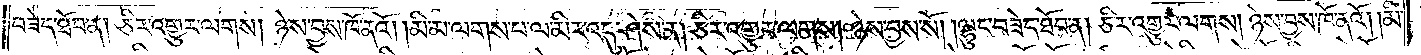བཟེད་ཐོབ་ན། ཅིར་འགྱུར་ལགས། ཉེས་བྱས་ཁོ་ནའོ། །མི་མ་ལགས་པ་ལ་མིར་འདུ་ཤེས་ན། ཅིར་འགྱུར་ལགས། ཉེས་བྱས་སོ། །ལྷུང་བཟེད་ཐོབ་ན། ཅིར་འགྱུར་ལགས། ཉེས་བྱས་ཁོ་ནའོ། །མི་
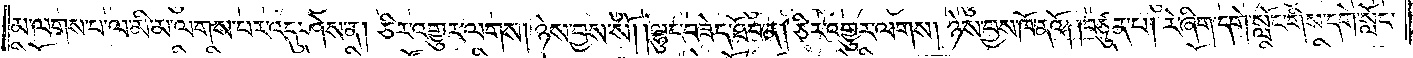མ་ལགས་པ་ལ་མི་མ་ལགས་པར་འདུ་ཤེས་ན། ཅིར་འགྱུར་ལགས། ཉེས་བྱས་སོ། །ལྷུང་བཟེད་ཐོབ་ན། ཅིར་འགྱུར་ལགས། ཉེས་བྱས་ཁོ་ནའོ། །བཙུན་པ། རེ་ཞིག་དགེ་སློང་གིས་དགེ་སློང་
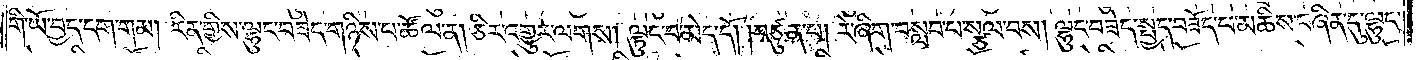གི་ཡོ་བྱད་དག་གམ། རིན་གྱིས་ལྷུང་བཟེད་གཉིས་པ་ཚོལ་ན། ཅིར་འགྱུར་ལགས། ལྟུང་བ་མེད་དོ། །བཙུན་པ། རེ་ཞིག་བསླབ་པ་སྩལ་བས། ལྷུང་བཟེད་སྤྱད་བཟོད་པ་མཆིས་བཞིན་དུ་ལྷུང་
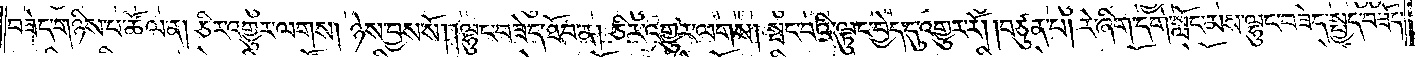བཟེད་གཉིས་པ་ཚོལ་ན། ཅིར་འགྱུར་ལགས། ཉེས་བྱས་སོ། །ལྷུང་བཟེད་ཐོབ་ན། ཅིར་འགྱུར་ལགས། སྤང་བའི་ལྟུང་བྱེད་དུ་འགྱུར་རོ། །བཙུན་པ། རེ་ཞིག་དགེ་སློང་མས་ལྷུང་བཟེད་སྤྱད་བཟོད་
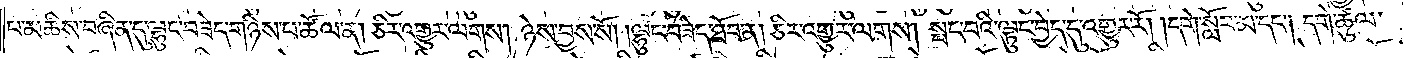པ་མཆིས་བཞིན་དུ་ལྷུང་བཟེད་གཉིས་པ་ཚོལ་ན། ཅིར་འགྱུར་ལགས། ཉེས་བྱས་སོ། །ལྷུང་བཟེད་ཐོབ་ན། ཅིར་འགྱུར་ལགས། སྤང་བའི་ལྟུང་བྱེད་དུ་འགྱུར་རོ། །དགེ་སློང་མ་དང༌། དགེ་ཚུལ་
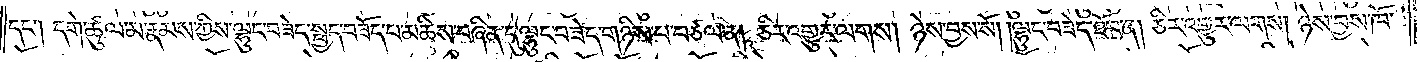དང༌། དགེ་ཚུལ་མ་རྣམས་ཀྱིས་ལྷུང་བཟེད་སྤྱད་བཟོད་པ་མཆིས་བཞིན་དུ་ལྷུང་བཟེད་གཉིས་པ་བཙལ་ན། ཅིར་འགྱུར་ལགས། ཉེས་བྱས་སོ། །ལྷུང་བཟེད་ཐོབ་ན། ཅིར་འགྱུར་ལགས། ཉེས་བྱས་ཁོ་
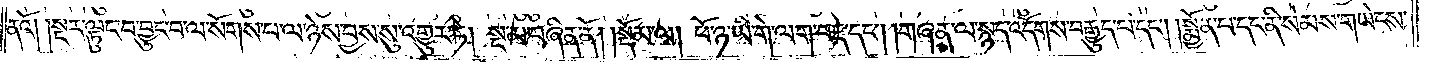ནའོ། །སྔར་ལྟུང་བ་བྱུང་བ་ལ་སོགས་པ་ལ་ཉེས་བྱས་སུ་འགྱུར་ཏེ། སྔ་མ་བཞིན་ནོ།    །སྡོམ་ལ། ཕོ་ཉ་ཡི་གེ་ལག་བརྡ་དང༌། །གཞན་ལ་སྙད་འདོགས་བརྒྱུད་པ་དང༌། སྨྱོན་པ་དང་ནི་སེམས་གཡེངས་
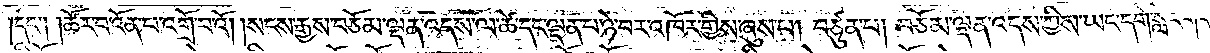།དང༌། །ཚོར་བ་འོན་པ་འགྲོ་བ་འོ། །སངས་རྒྱས་བཅོམ་ལྡན་འདས་ལ་ཚེ་དང་ལྡན་པ་ཉེ་བར་འཁོར་གྱིས་ཞུས་པ། བཙུན་པ། བཅོམ་ལྡན་འདས་ཀྱིས་ཡང་དགེ་སློང་གང་
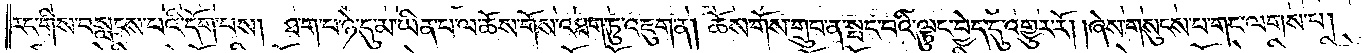རང་གིས་བསླངས་པའི་དོག་པས། ཐ་ག་པ་ཉེ་དུ་མ་ཡིན་པ་ལ་ཆོས་གོས་འཐག་ཏུ་འཇུག་ན། ཆོས་གོས་གྲུབ་ན་སྤང་བའི་ལྟུང་བྱེད་དུ་འགྱུར་རོ། །ཞེས་གསུངས་པ་གང་ལགས་པ།
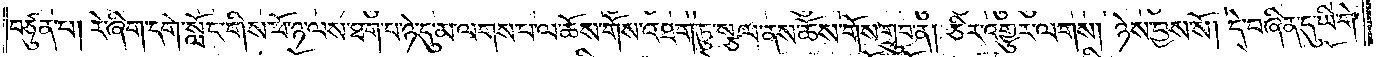བཙུན་པ། རེ་ཞིག་དགེ་སློང་གིས་ཕོ་ཉ་ལས་ཐ་ག་པ་ཉེ་དུ་མ་ལགས་པ་ལ་ཆོས་གོས་འཐག་ཏུ་སྩལ་ནས་ཆོས་གོས་གྲུབ་ན། ཅིར་འགྱུར་ལགས། ཉེས་བྱས་སོ། །དེ་བཞིན་དུ་ཡི་གེ་
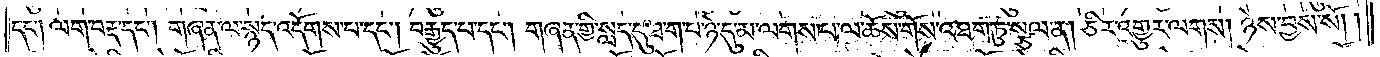དང༌། ལག་བརྡ་དང༌། གཞན་ལ་སྙད་འདོགས་པ་དང༌། བརྒྱུད་པ་དང༌། གཞན་གྱི་སླད་དུ་ཐ་ག་པ་ཉེ་དུ་མ་ལགས་པ་ལ་ཆོས་གོས་འཐག་ཏུ་སྩལ་ན། ཅིར་འགྱུར་ལགས། ཉེས་བྱས་སོ། །
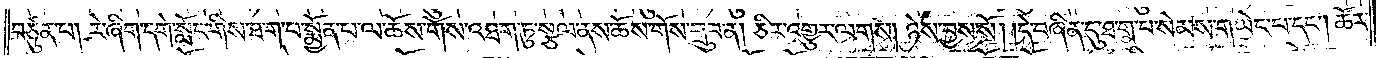བཙུན་པ། རེ་ཞིག་དགེ་སློང་གིས་ཐ་ག་པ་སྨྱོན་པ་ལ་ཆོས་གོས་འཐག་ཏུ་སྩལ་ནས་ཆོས་གོས་གྲུབ་ན། ཅིར་འགྱུར་ལགས། ཉེས་བྱས་སོ། །དེ་བཞིན་དུ་ཐ་ག་པ་སེམས་གཡེང་པ་དང༌། ཚོར་
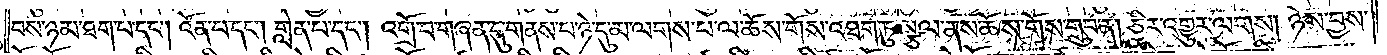བས་ཉམ་ཐག་པ་དང༌། འོན་པ་དང༌། གླེན་པ་དང༌། འགྲོ་བ་གཞན་དུ་གནས་པ་ཉེ་དུ་མ་ལགས་པ་ལ་ཆོས་གོས་འཐག་ཏུ་སྩལ་ནས་ཆོས་གོས་གྲུབ་ན། ཅིར་འགྱུར་ལགས། ཉེས་བྱས་
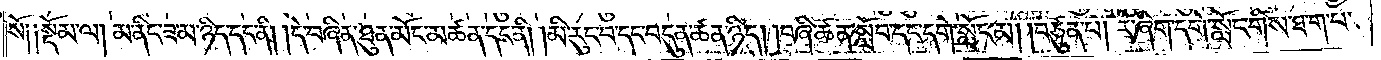སོ༑    ༑སྡོམ་ལ། མ་ནིང་ཟ་མ་ཉིད་དང་ནི། །དེ་བཞིན་ཐུན་མོང་མཚན་དང་ནི། །མི་རུང་བ་དང་བདུན་ཚན་ཉིད། །བཞི་ཚན་སློབ་དང་དགེ་སློང་མ། །བཙུན་པ། རེ་ཞིག་དགེ་སློང་གིས་ཐ་ག་པ་
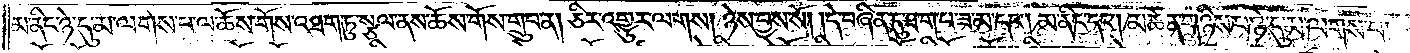མ་ནིང་ཉེ་དུ་མ་ལགས་པ་ལ་ཆོས་གོས་འཐག་ཏུ་སྩལ་ནས་ཆོས་གོས་གྲུབ་ན། ཅིར་འགྱུར་ལགས། ཉེས་བྱས་སོ། །དེ་བཞིན་དུ་ཐ་ག་པ་ཟ་མ་དང༌། མ་ནིང་དང༌། མཚན་གཉིས་པ་ཉེ་དུ་མ་ལགས་པ་
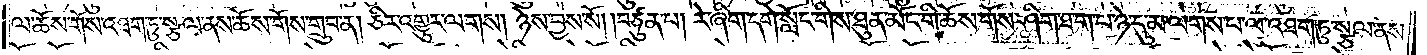ལ་ཆོས་གོས་འཐག་ཏུ་སྩལ་ནས་ཆོས་གོས་གྲུབ་ན། ཅིར་འགྱུར་ལགས། ཉེས་བྱས་སོ། །བཙུན་པ། རེ་ཞིག་དགེ་སློང་གིས་ཐུན་མོང་གི་ཆོས་གོས་ཤིག་ཐ་ག་པ་ཉེ་དུ་མ་ལགས་པ་ལ་འཐག་ཏུ་སྩལ་ནས་
